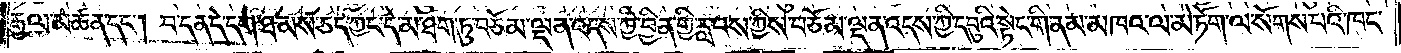རྒྱལ་མཚན་དང༌། བ་དན་དེ་དག་ཐམས་ཅད་ཀྱང་དེ་མ་ཐག་ཏུ་བཅོམ་ལྡན་འདས་ཀྱི་བྱིན་གྱི་རླབས་ཀྱིས་བཅོམ་ལྡན་འདས་ཀྱི་དབུའི་སྟེང་གི་ནམ་མཁའ་ལ་མེ་ཏོག་ལ་སོགས་པའི་ཁང་
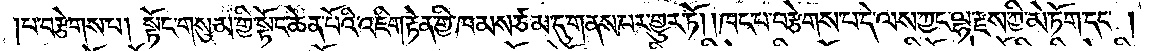པ་བརྩེགས་པ། སྟོང་གསུམ་གྱི་སྟོང་ཆེན་པོའི་འཇིག་རྟེན་གྱི་ཁམས་ཙམ་དུ་གནས་པར་གྱུར་ཏོ། །ཁང་པ་བརྩེགས་པ་དེ་ལས་ཀྱང་ལྷ་རྫས་ཀྱི་མེ་ཏོག་དང༌།
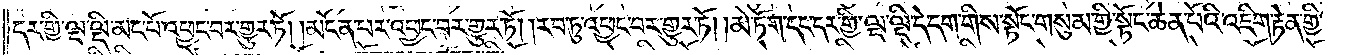དར་གྱི་ལྔ་ལྡི་མང་པོ་འཕྱང་བར་གྱུར་ཏོ། །མངོན་པར་འཕྱང་བར་གྱུར་ཏོ། །རབ་ཏུ་འཕྱང་བར་གྱུར་ཏོ། །མེ་ཏོག་དང་དར་གྱི་ལྔ་ལྡི་དེ་དག་གིས་སྟོང་གསུམ་གྱི་སྟོང་ཆེན་པོའི་འཇིག་རྟེན་གྱི་
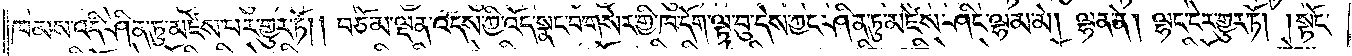ཁམས་འདི་ཤིན་ཏུ་མཛེས་པར་གྱུར་ཏོ༎ བཅོམ་ལྡན་འདས་ཀྱི་འོད་སྣང་བ་གསེར་གྱི་ཁ་དོག་ལྟ་བུ་དེས་ཀྱང་ཤིན་ཏུ་མཛེས་ཤིང་ལྷམ་མེ། ལྷན་ནེ། ལྷང་ངེར་གྱུར་ཏོ། །སྟོང་
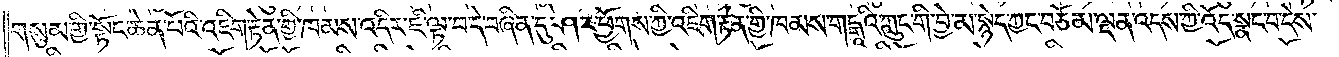གསུམ་གྱི་སྟོང་ཆེན་པོའི་འཇིག་རྟེན་གྱི་ཁམས་འདིར་ཇི་ལྟ་བ་དེ་བཞིན་དུ་ཤར་ཕྱོགས་ཀྱི་འཇིག་རྟེན་གྱི་ཁམས་གངྒཱའི་ཀླུང་གི་བྱེ་མ་སྙེད་ཀྱང་བཅོམ་ལྡན་འདས་ཀྱི་འོད་སྣང་བ་དེས་
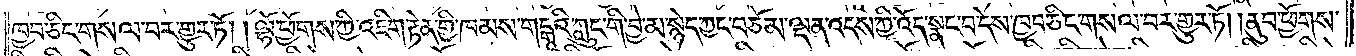ཁྱབ་ཅིང་གསལ་བར་གྱུར་ཏོ། །ལྷོ་ཕྱོགས་ཀྱི་འཇིག་རྟེན་གྱི་ཁམས་གངྒཱའི་ཀླུང་གི་བྱེ་མ་སྙེད་ཀྱང་བཅོམ་ལྡན་འདས་ཀྱི་འོད་སྣང་བ་དེས་ཁྱབ་ཅིང་གསལ་བར་གྱུར་ཏོ། །ནུབ་ཕྱོགས་
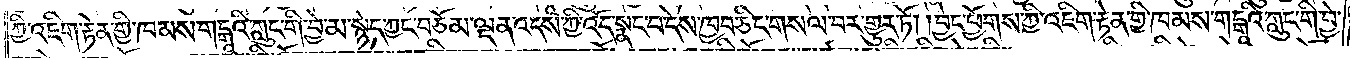ཀྱི་འཇིག་རྟེན་གྱི་ཁམས་གངྒཱའི་ཀླུང་གི་བྱེ་མ་སྙེད་ཀྱང་བཅོམ་ལྡན་འདས་ཀྱི་འོད་སྣང་བ་དེས་ཁྱབ་ཅིང་གསལ་བར་གྱུར་ཏོ། །བྱང་ཕྱོགས་ཀྱི་འཇིག་རྟེན་གྱི་ཁམས་གངྒཱའི་ཀླུང་གི་བྱེ་
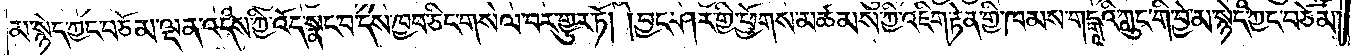མ་སྙེད་ཀྱང་བཅོམ་ལྡན་འདས་ཀྱི་འོད་སྣང་བ་དེས་ཁྱབ་ཅིང་གསལ་བར་གྱུར་ཏོ། །བྱང་ཤར་གྱི་ཕྱོགས་མཚམས་ཀྱི་འཇིག་རྟེན་གྱི་ཁམས་གངྒཱའི་ཀླུང་གི་བྱེ་མ་སྙེད་ཀྱང་བཅོམ་
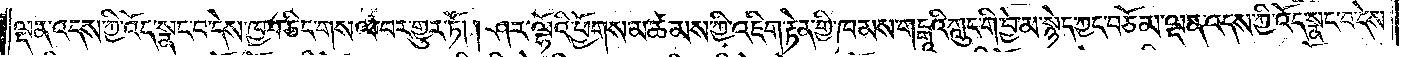ལྡན་འདས་ཀྱི་འོད་སྣང་བ་དེས་ཁྱབ་ཅིང་གསལ་བར་གྱུར་ཏོ། །ཤར་ལྷོའི་ཕྱོགས་མཚམས་ཀྱི་འཇིག་རྟེན་གྱི་ཁམས་གངྒཱའི་ཀླུང་གི་བྱེ་མ་སྙེད་ཀྱང་བཅོམ་ལྡན་འདས་ཀྱི་འོད་སྣང་བ་དེས་
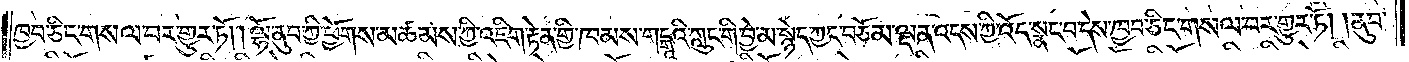ཁྱབ་ཅིང་གསལ་བར་གྱུར་ཏོ། །ལྷོ་ནུབ་ཀྱི་ཕྱོགས་མཚམས་ཀྱི་འཇིག་རྟེན་གྱི་ཁམས་གངྒཱའི་ཀླུང་གི་བྱེ་མ་སྙེད་ཀྱང་བཅོམ་ལྡན་འདས་ཀྱི་འོད་སྣང་བ་དེས་ཁྱབ་ཅིང་གསལ་བར་གྱུར་ཏོ། །ནུབ་
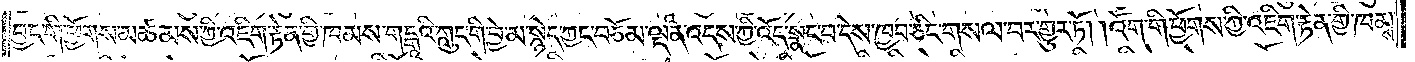བྱང་གི་ཕྱོགས་མཚམས་ཀྱི་འཇིག་རྟེན་གྱི་ཁམས་གངྒཱའི་ཀླུང་གི་བྱེ་མ་སྙེད་ཀྱང་བཅོམ་ལྡན་འདས་ཀྱི་འོད་སྣང་བ་དེས་ཁྱབ་ཅིང་གསལ་བར་གྱུར་ཏོ། །འོག་གི་ཕྱོགས་ཀྱི་འཇིག་རྟེན་གྱི་ཁམས་
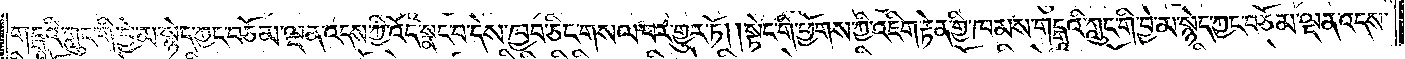གངྒཱའི་ཀླུང་གི་བྱེ་མ་སྙེད་ཀྱང་བཅོམ་ལྡན་འདས་ཀྱི་འོད་སྣང་བ་དེས་ཁྱབ་ཅིང་གསལ་བར་གྱུར་ཏོ། །སྟེང་གི་ཕྱོགས་ཀྱི་འཇིག་རྟེན་གྱི་ཁམས་གངྒཱའི་ཀླུང་གི་བྱེ་མ་སྙེད་ཀྱང་བཅོམ་ལྡན་འདས་
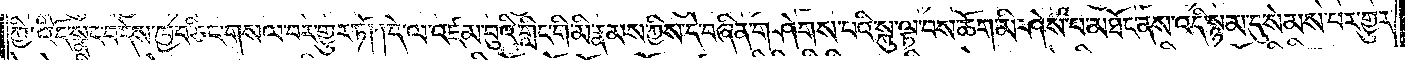ཀྱི་འོད་སྣང་བ་དེས་ཁྱབ་ཅིང་གསལ་བར་གྱུར་ཏོ། །དེ་ལ་འཛམ་བུའི་གླིང་གི་མི་རྣམས་ཀྱིས་དེ་བཞིན་གཤེགས་པའི་སྐུ་ལྟ་བས་ཆོག་མི་ཤེས་པ་མཐོང་ནས་འདི་སྙམ་དུ་སེམས་པར་གྱུར་
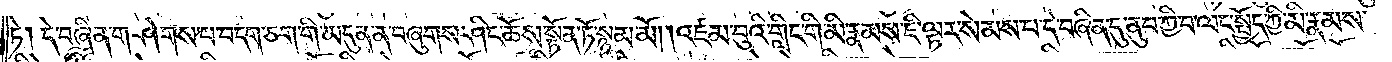ཏེ། དེ་བཞིན་གཤེགས་པ་བདག་ཅག་གི་མདུན་ན་བཞུགས་ཤིང་ཆོས་སྟོན་ཏོ་སྙམ་མོ། །འཛམ་བུའི་གླིང་གི་མི་རྣམས་ཇི་ལྟར་སེམས་པ་དེ་བཞིན་དུ་ནུབ་ཀྱི་བ་ལང་སྤྱོད་ཀྱི་མི་རྣམས་
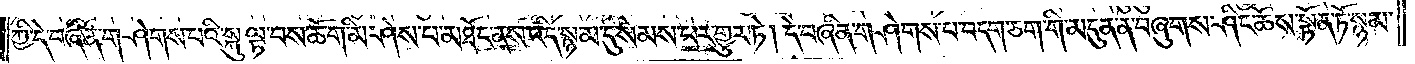ཀྱི་དེ་བཞིན་གཤེགས་པའི་སྐུ་ལྟ་བས་ཆོ་ག་མི་ཤེས་པ་མཐོང་ནས་འདི་སྙམ་དུ་སེམས་པར་གྱུར་ཏེ། དེ་བཞིན་གཤེགས་པ་བདག་ཅག་གི་མདུན་ན་བཞུགས་ཤིང་ཆོས་སྟོན་ཏོ་སྙམ་
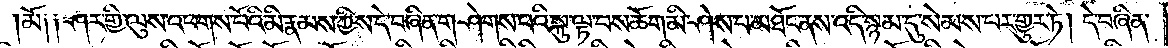མོ༑ ༑ཤར་གྱི་ལུས་འཕགས་པོའི་མི་རྣམས་ཀྱིས་དེ་བཞིན་གཤེགས་པའི་སྐུ་ལྟ་བས་ཆོག་མི་ཤེས་པ་མཐོང་ནས་འདི་སྙམ་དུ་སེམས་པར་གྱུར་ཏེ། དེ་བཞིན་
